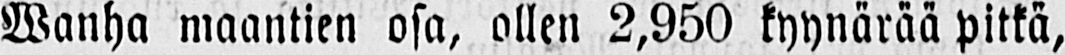Wanha maantien osa, ollen 2,950 kyynärää pitkä,
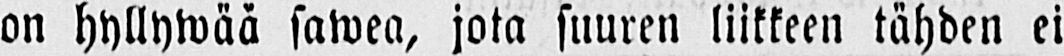on hyllywää sawea, jota suuren liikkeen tähden ei
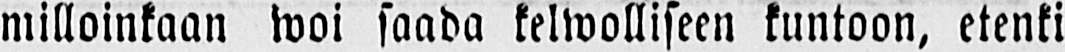milloinkaan woi saada kelwolliseen kuntoon, etenki
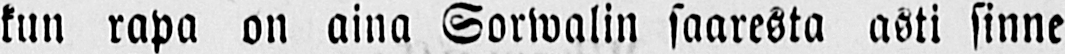kun rapa on aina Sorwalin saaresta asti sinne
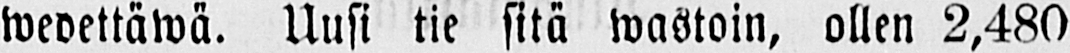wedettäwä. Uusi tie sitä wastoin, ollen 2,480
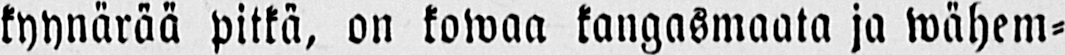kyynärää pitkä, on kowaa kangasmaata ja wähem-
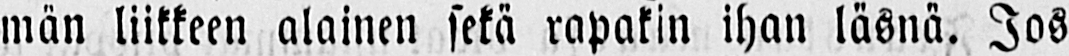män liikkeen alainen sekä rapakin ihan läsnä. Jos
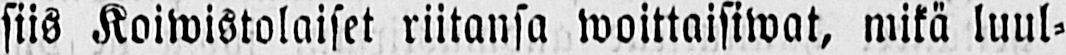siis Koiwistolaiset riitansa woittaisiwat, mikä luul-
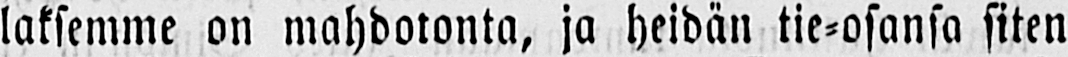laksemme on mahdotonta, ja heidän tie-osansa siten
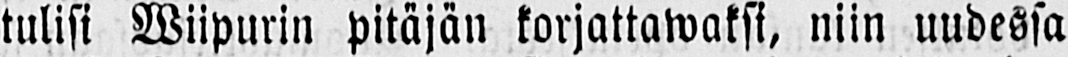tulisi Wiipurin pitäjän korjattawaksi, niin uudessa
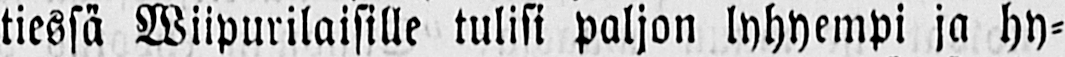tiessä Wiipurilaisille tulisi paljon lyhyempi ja hy-
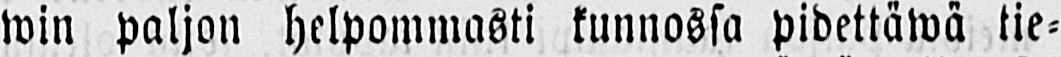win paljon helpommasti kunnossa pidettäwä tie-
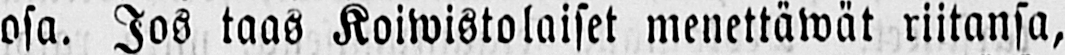osa. Jos taas Koiwistolaiset menettäwät riitansa,
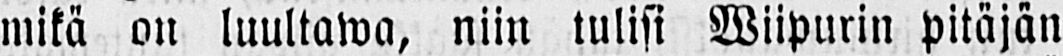mikä on luultawa, niin tulisi Wiipurin pitäjän
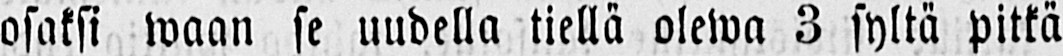osaksi waan se uudella tiellä olewa 3 syltä pitkä
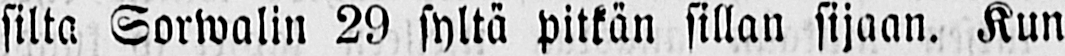silta Sorwalin 29 syltä pitkän sillan sijaan. Kun
